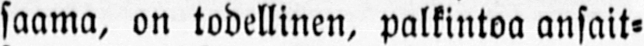saama, on todellinen, palkintoa ansait-
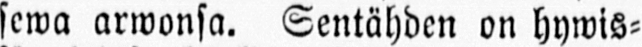sewa arwonsa. Sentähden on hywis-
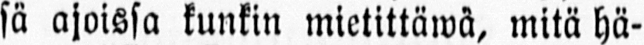sä ajoissa kunkin mietittäwä, mitä hä-
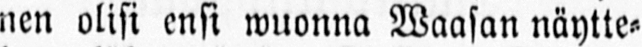nen olisi ensi wuonna Waasan näytte-
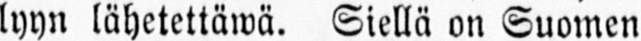lyyn lähetettäwä. Siellä on Suomen
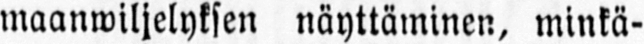maanwiljelyksen näyttäminen, minkä-
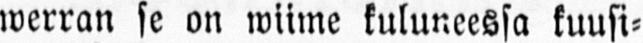werran se on wiime kuluneessa kuusi-
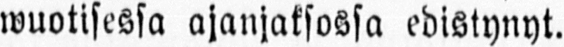wuotisessa ajanjaksossa edistynyt.
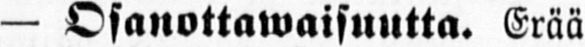— Osanottawaisuutta. Erää
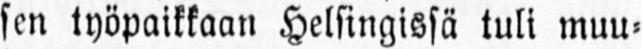sen työpaikkaan Helsingissä tuli muu-
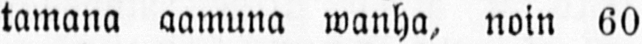tamana aamuna wanha, noin 60
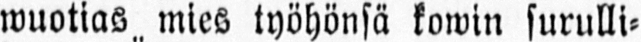wuotias mies työhönsä kowin surulli-
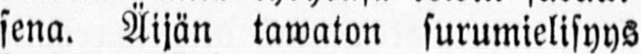sena. Äijän tawaton surumielisyys
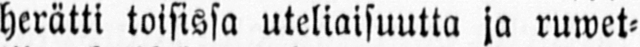herätti toisissa uteliaisuutta ja ruwet-
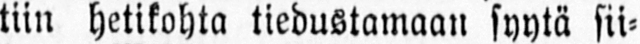tiin hetikohta tiedustamaan syytä sii-
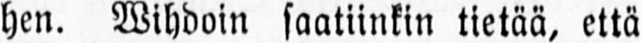hen. Wihdoin saatiinkin tietää, että
